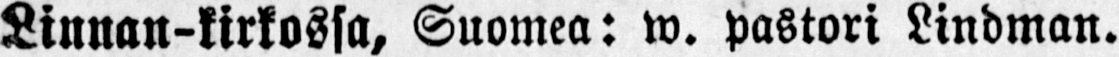Linnan-kirkossa, Suomea: w. pastori Lindman.
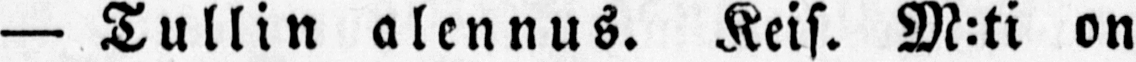— Tullin alennus. Keis. M:ti on
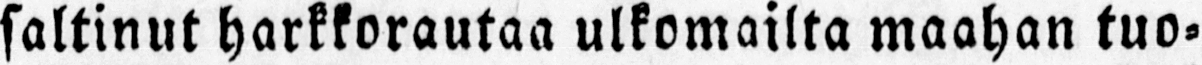saltinut harkkorautaa ulkomailta maahan tuo-
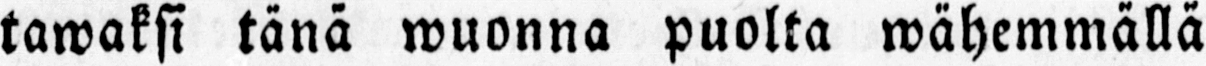tawaksi tänä wuonna puolta wähemmällä
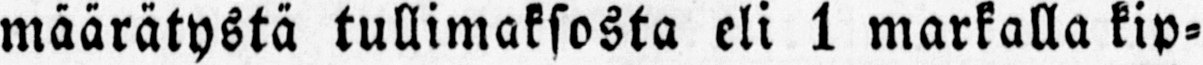määrätystä tullimaksosta eli 1 markalla kip-
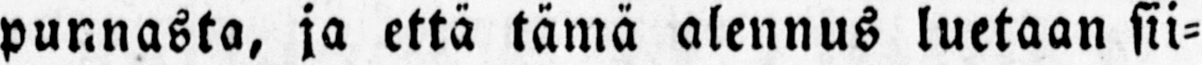punnasta, ja että tämä alennus luetaan sii-
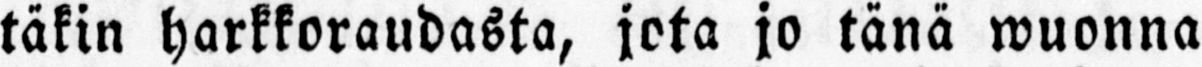täkin harkkoraudasta, jota jo tänä wuonna
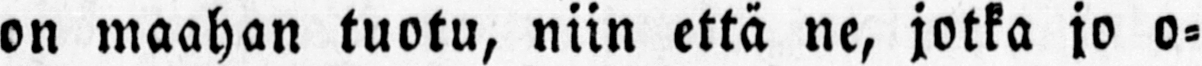on maahan tuotu, niin että ne, jotka jo o-
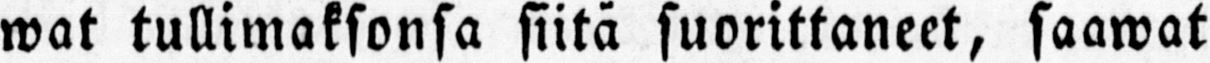wat tullimaksonsa siitä suorittaneet, saawat
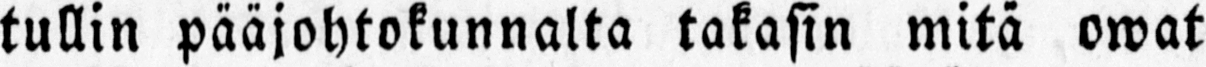tullin pääjohtokunnalta takasin mitä owat
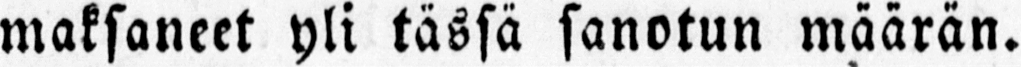maksaneet yli tässä sanotun määrän.
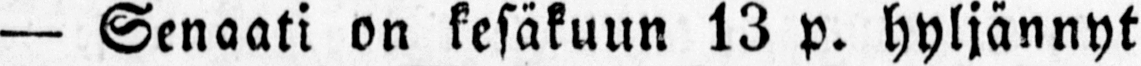— Senaati on kesäkuun 13 p. hyljännyt
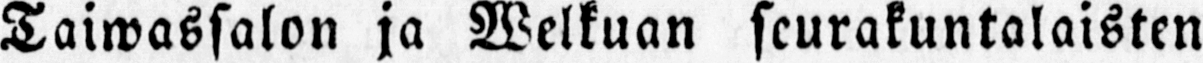Taiwassalon ja Welkuan seurakuntalaisten
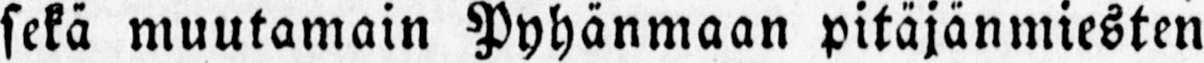sekä muutamain Pyhänmaan pitäjänmiesten
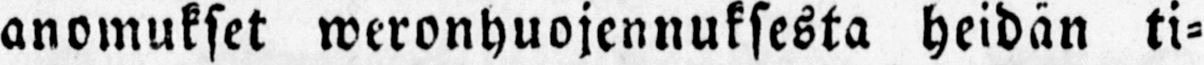anomukset weronhuojennuksesta heidän ti-
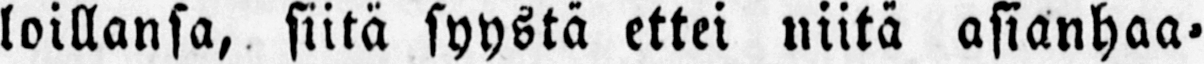loillansa, siitä syystä ettei niitä asianhana-
